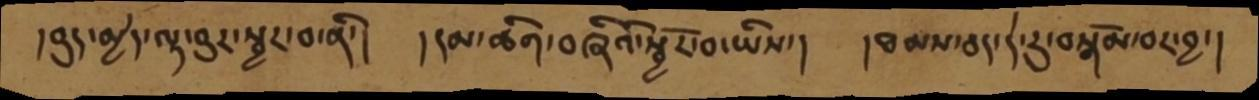།བུད་མྱེད་ལྟ་བུར་སྦྱར་བ་ནི་།  །དམ་ཚིག་བཞིའི་སྦྱོར་བ་ཡིས་།   །ཐམས་ཅད་དེ་རུ་བསྒོམ་བར་བྱ་།
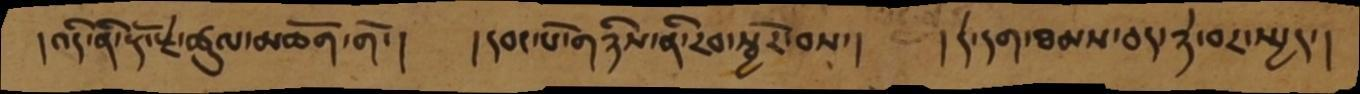འདི་ནི་རྡོ་རྗེ་ཚུལ་མཆོག་གོ་།    །དབང་པོ་གཉིས་ནི་རབ་སྦྱོར་བས་།     །དེ་དག་ཐམས་ཅད་ཉེ་བར་སྤྱད་།
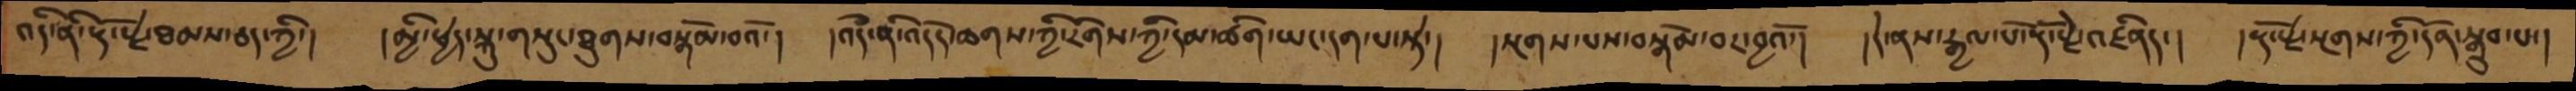འདི་ནི་རྡོ་རྗེ་ཐམས་ཅད་ཀྱི་།   །མྱི་ཕྱེད་སྐུ་གསུང་ཐུགས་བསྒོམ་བའོ་།  །འདི་ནི་འདོད་ཆགས་ཀྱི་རིགས་ཀྱི་དམ་ཚིག་ཡང་དག་པ་སྟེ་།   །སྔགས་པས་བསྒོམ་པར་བྱའོ་།  །དེ་ནས་རྒྱལ་པོ་རྡོ་རྗེ་འཛིནད་།   །རྡོ་རྗེ་སྔགས་ཀྱི་དོན་སྒྲུབ་པ་།
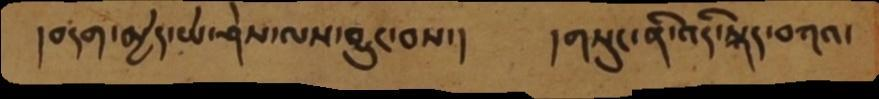།བདག་མྱེད་ཡེ་ཤེས་ལས་བྱུང་བས་།   །གསུང་ནི་འདི་སྐད་བཀའ་
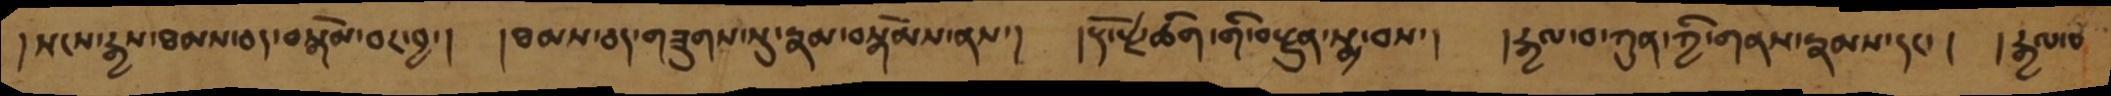།སངས་རྒྱས་ཐམས་ཅད་བསྒོམ་བར་བྱ་།  །ཐམས་ཅད་གཟུགས་སུ་རྣམ་བསྒོམས་ནས་།  །རྡོ་རྗེ་ཚིག་གི་བརྫུན་སྨྲ་བས་།  རྒྱལ་བ་ཀུན་ཀྱི་གནས་རྣམས་དང་་།  །རྒྱལ་བ
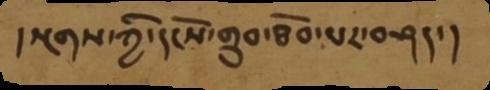།སྔགས་ཀྱི་དངོས་གྲུབ་ཐོབ་པར་བཤད་།
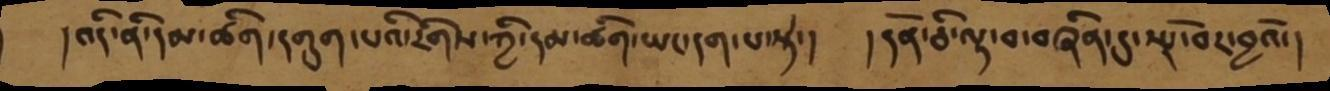།འདི་ནི་དམ་ཚིག་དགུག་པའི་རིགས་ཀྱི་དམ་ཚིག་ཡང་དག་པ་སྟེ་།   །དོན་ཅི་ལྟ་བ་བཞིན་དུ་སྤྲོ་བར་བྱའོ་།
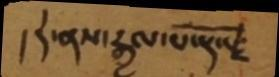།དེ་ནས་རྒྱལ་པོ་རྡོ་རྗེ
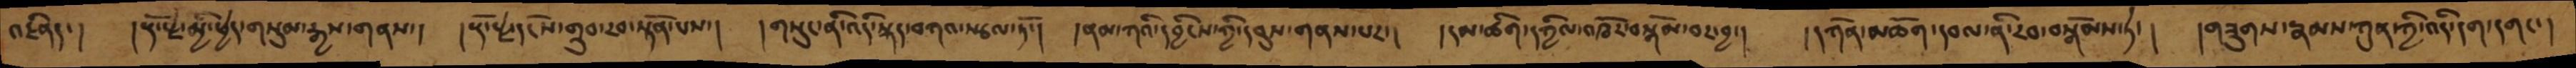འཛིནད་།  །རྡོ་རྗེ་མྱི་ཕྱེད་གསུམ་རྒྱས་གནས་།  །རྡོ་རྗེ་དངོས་གྲུབ་རབ་སྟོན་པས་།  །གསུང་ནི་འདི་སྐད་བཀའ་སྩལ་ཏོ་།  །ནམ་ཀའི་དབྱིངས་ཀྱི་དབུས་གནས་པར་།  །དམ་ཚིག་དཀྱིལ་འཁོར་བསྒོམ་བར་བྱ་།  དཀོན་མཆོག་དབལ་ནི་རབ་བསྒོམས་ཏེ་།  །གཟུགས་རྣམས་ཀུན་ཀྱི་འདི་དག་དགང་།
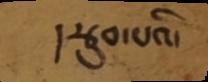།རྩུབ་པའི་
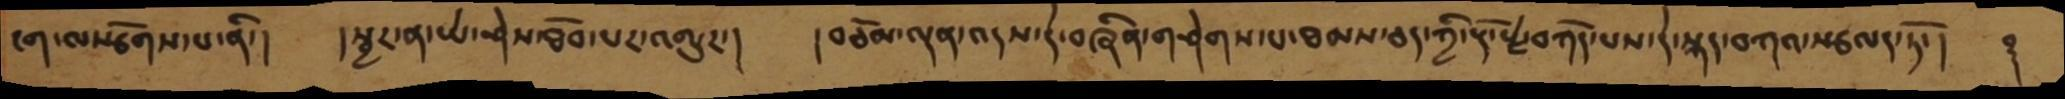ངག་ལསྩོགས་པ་ནི་།  །སྦྱར་ན་ཡེ་ཤེས་ཐོབ་པར་འགྱུར་།   །བཅོམ་ལྡན་འདས་དེ་བཞིན་གཤེགས་པ་ཐམས་ཅད་ཀྱི་རྡོ་རྗེ་བཀོད་པས་དེ་སྐད་བཀའ་སྩལད་ཏོ་།  ࿑
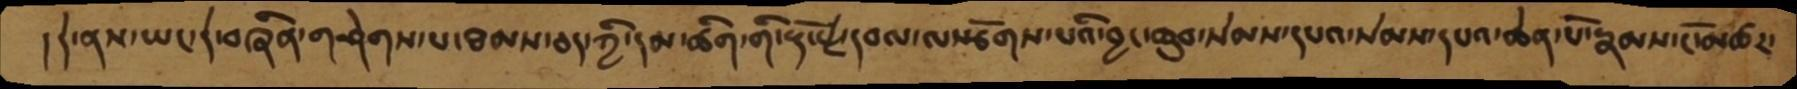།དེ་ནས་ཡང་དེ་བཞིན་གཤེགས་པ་ཐམས་ཅད་ཀྱི་དམ་ཚིག་གི་རྡོ་རྗེ་དབལ་ལསྩོགས་པའི་བྱང་ཆུབ་སེམས་དཔའ་སེམས་དཔའ་ཆེན་པོ་རྣམས་ངོ་མཚར་
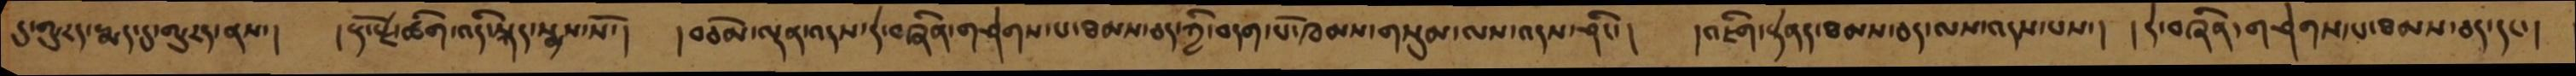དུ་གྱུརད་རྨད་དུ་གྱུརད་ནས་།   །རྡོ་རྗེ་ཚིག་འདི་སྐད་སྨྲས་སོ་།  །བཅོམ་ལྡན་འདས་དེ་བཞིནགཤེགས་པ་ཐམས་ཅད་ཀྱི་བདག་པོ་ཁམས་གསུམ་ལས་འདས་ཤིང་།   །འཇིག་རྟེནད་ཐམས་ཅད་ལས་འདས་པས་།  །དེ་བཞིན་གཤེགས་པ་ཐམས་ཅད་དང་།
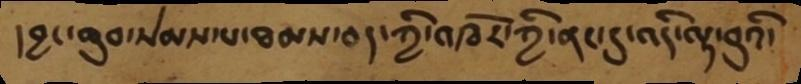།བྱང་ཆུབ་སེམས་པ་ཐམས་ཅད་ཀྱི་འཁོར་ཀྱི་ནང་དུ་འདི་ལྟ་བུའི་
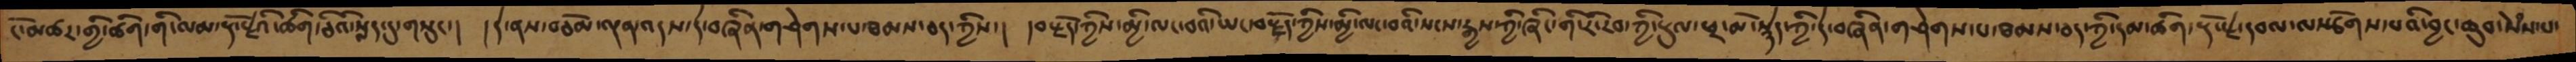ངོ་མཚར་གྱི་ཚིག་གི་ལམ་རྡོ་རྗེ་ཚིག་ཅིའི་སླད་དུ་གསུང་།  །དེ་ནས་བཅོམ་ལྡན་འདས་དེ་བཞིན་གཤེགས་པ་ཐམས་ཅད་ཀྱིས་།  །བརྗོད་ཀྱིས་མྱི་ལང་བའི་ཡང་བརྗོད་ཀྱིས་མྱི་ལང་བའི་སངས་རྒྱས་ཀྱི་ཞིང་གི་རི་རབ་རྡུལ་ཕྲ་མོ་སྙེད་ཀྱི་དེ་བཞིན་གཤེགས་པ་ཐམས་ཅད་ཀྱི་དམ་ཚིག་རྡོ་རྗེ་དབལ་ལསྩོགས་པའི་བྱང་ཆུབ་སེཾས་པ་
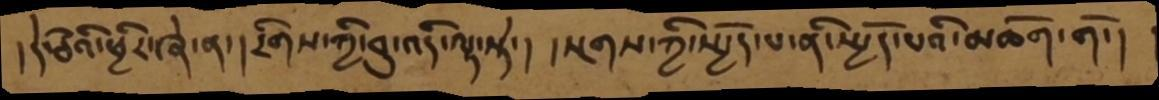།དེ་ཅིའི་ཕྱིར་ཞེ་ན་།རིགས་ཀྱི་བུ་འདི་ལྟ་སྟེ་། །སྔགས་ཀྱི་སྤྱོད་པ་ནི་སྤྱོད་པའི་མཆོག་གོ།
